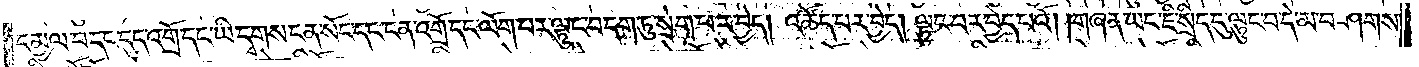དམྱལ་བ་དང་དུད་འགྲོ་དང་ཡི་དྭགས་ངན་སོང་དང་ངན་འགྲོ་དང་ལོག་པར་ལྟུང་བ་དག་ཏུ་སྲེག་པར་བྱེད། འཚོད་པར་བྱེད། ལྟུང་བར་བྱེད་པའོ། །གཞན་ཡང་ཇི་སྲིད་དུ་ལྟུང་བ་དེ་མ་བཤགས་
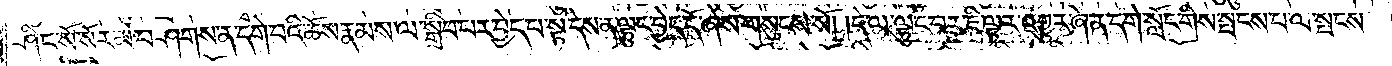ཤིང་སོ་སོར་མ་བཤགས་ན་དགེ་བའི་ཆོས་རྣམས་ལ་སྒྲིབ་པར་བྱེད་པ་སྟེ་དེས་ན་ལྟུང་བྱེད་དོ་ཞེས་གསུངས་སོ། །དེ་ལ་ལྟུང་བར་ཇི་ལྟར་འགྱུར་ཞེ་ན་དགེ་སློང་གིས་སྤངས་པ་ལ་སྤངས་
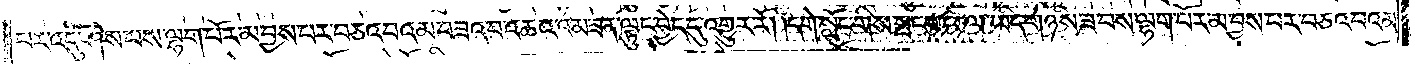པར་འདུ་ཤེས་པས་ལྷག་པོར་མ་བྱས་པར་བཅའ་བའམ་བཅའ་བ་འཆའ་འམ་ཟན་ལྟུང་བྱེད་དུ་འགྱུར་རོ། །དགེ་སློང་གིས་སྤངས་པ་ལ་ཡིད་གཉིས་ཟ་བས་ལྷག་པོར་མ་བྱས་པར་བཅའ་བའམ་
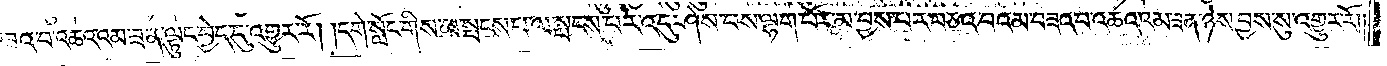བཟའ་བ་འཆའ་འམ་ཟ་ན་ལྟུང་བྱེད་དུ་འགྱུར་རོ། །དགེ་སློང་གིས་མ་སྤངས་པ་ལ་སྤངས་པ་ལ་འདུ་ཤེས་པས་ལྷག་པོར་མ་བྱས་པར་བཅའ་བའམ་བཟའ་བ་འཆའ་འམ་ཟན་ཉེས་བྱས་སུ་འགྱུར་རོ། །
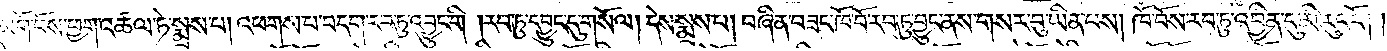མགོ་བོས་ཕྱག་འཚལ་ཏེ་སྨྲས་པ། འཕགས་པ་བདག་རབ་ཏུ་འབྱུང་གི །རབ་ཏུ་དབྱུང་དུ་གསོལ། དེས་སྨྲས་པ། བཞིན་བཟང་ཁོ་བོ་རབ་ཏུ་བྱུང་ནས་གསར་བུ་ཡིན་པས། ཁོ་བོས་རབ་ཏུ་འབྱིན་དུ་མི་རུང་ངོ༌། །
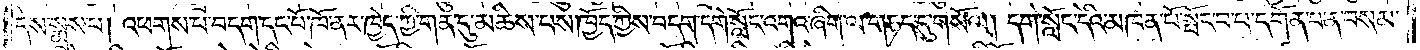དེ་སྨྲས་པ། འཕགས་པ་བདག་དང་པོ་ཁོ་ནར་ཁྱེད་ཀྱི་གན་དུ་མཆིས་པས་ཁྱོད་ཀྱིས་བདག་དགེ་སློང་འགའ་ཞིག་ལ་གཏད་དུ་གསོལ། དགེ་སློང་དེའི་མཁན་པོ་སྤོང་བ་པ་དགོན་པ་ན་བསམ་
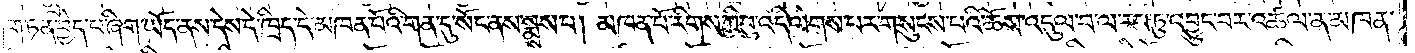གཏན་བྱེད་པ་ཞིག་ཡོད་ནས་དེས་དེ་ཁྲིད་དེ་མཁན་པོའི་གན་དུ་སོང་ནས་སྨྲས་པ། མཁན་པོ་རིགས་ཀྱི་བུ་འདི་ལེགས་པར་གསུངས་པའི་ཆོས་འདུལ་བ་ལ་རབ་ཏུ་འབྱུང་བར་འཚལ་ན་མཁན་
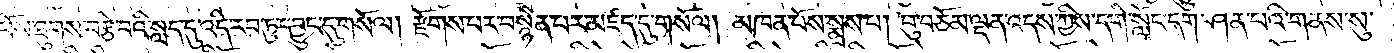པོས་ཐུགས་བརྩེ་བའི་སླད་དུ་འདི་རབ་ཏུ་དབྱུང་དུ་གསོལ། རྫོགས་པར་བསྙེན་པར་མཛད་དུ་གསོལ། མཁན་པོས་སྨྲས་པ། བུ་བཅོམ་ལྡན་འདས་ཀྱིས་དགེ་སློང་དག་ཤན་པའི་གནས་སུ་
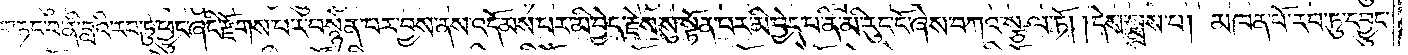གཏང་བ་ནི་བླའི་རབ་ཏུ་ཕྱུང་ཞིང་རྫོགས་པར་བསྙེན་པར་བྱས་ནས་འདོམས་པར་མི་བྱེད་རྗེས་སུ་སྟོན་པར་མི་བྱེད་པ་ནི་མི་རུང་ངོ་ཞེས་བཀའ་སྩལ་ཏོ། །དེས་སྨྲས་པ། མཁན་པོ་རབ་ཏུ་དབྱུང་
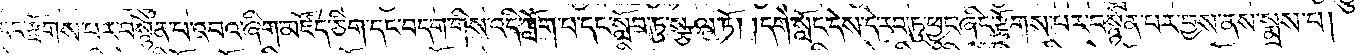བ་དང་རྫོགས་པར་བསྙེན་པ་འབའ་ཞིག་མཛོད་ཅིག་དང་བདག་གིས་འདི་ཀློག་པ་དང་སློབ་ཏུ་སྩལ་ཏོ། །དགེ་སློང་དེས་དེ་རབ་ཏུ་ཕྱུང་ཞིང་རྫོགས་པར་བསྙེན་པར་བྱས་ནས་སྨྲས་པ།
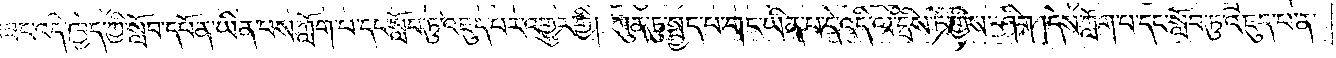བཞིན་བཟང་འདི་ཁྱེད་ཀྱི་སློབ་དཔོན་ཡིན་པས་ཀློག་པ་དང་སློབ་ཏུ་འཇུད་པར་འགྱུར་གྱི། ཀུན་ཏུ་སྤྱད་པ་གང་ཡིན་པ་དེ་འདི་ལ་དྲིས་ཏེ་གྱིས་ཤིག །དེས་ཀློག་པ་དང་སློབ་ཏུ་འཇུད་པ་ན་
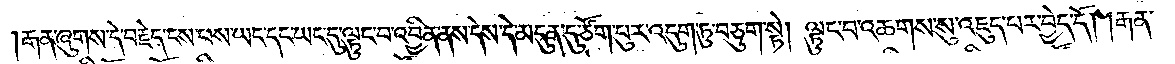རྒན་ཞུགས་དེ་བརྗེད་ངས་པས་ཡང་དང་ཡང་དུ་ལྟུང་བ་འབྱིན་ནས་དེས་དེ་མདུན་དུ་ཙོག་པུར་འདུག་ཏུ་བཅུག་སྟེ། ལྟུང་བ་འཆགས་སུ་འཇུད་པར་བྱེད་དོ། །རྒན་
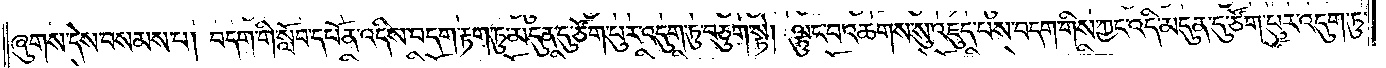ཞུགས་དེས་བསམས་པ། བདག་གིས་སློབ་དཔོན་འདིས་བདག་རྟག་ཏུ་མདུན་དུ་ཙོག་པུར་འདུག་ཏུ་བཅུག་སྟེ། ལྟུང་བ་འཆགས་སུ་འཇུད་པས་བདག་གིས་ཀྱང་འདི་མདུན་དུ་ཙོག་པུར་འདུག་ཏུ་
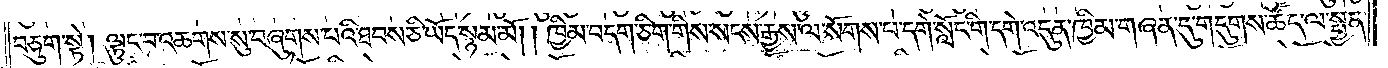བཅུག་སྟེ། ལྟུང་བ་འཆགས་སུ་བཞུགས་པའི་ཐབས་ཅི་ཡོད་སྙམ་མོ། །ཁྱིམ་བདག་ཅིག་གིས་སངས་རྒྱས་ལ་སོགས་པ་དགེ་སློང་གི་དགེ་འདུན་ཁྱིམ་གཞན་དུ་གདུགས་ཚོད་ལ་སྤྱན་
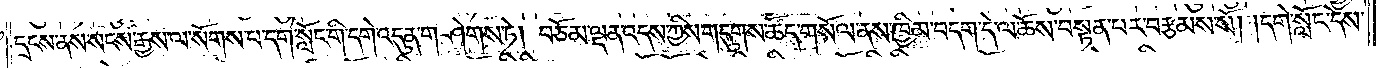དྲངས་ནས་སངས་རྒྱས་ལ་སོགས་པ་དགེ་སློང་གི་དགེ་འདུན་གཤེགས་ཏེ། བཅོམ་ལྡན་འདས་ཀྱིས་གདུགས་ཚོད་གསོལ་ནས་ཁྱིམ་བདག་དེ་ལ་ཆོས་བསྟན་པར་བརྩམས་སོ། །དགེ་སློང་དེས་
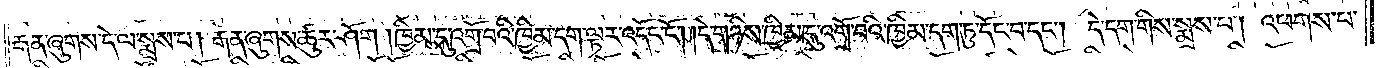རྒན་ཞུགས་དེ་ལ་སྨྲས་པ། རྒན་ཞུགས་ཚུར་ཤོག །ཁྱིམ་དུ་འགྲོ་བའི་ཁྱིམ་དག་ལྟར་འདོང་ངོ༌། །དེ་གཉིས་ཁྱིམ་དུ་འགྲོ་བའི་ཁྱིམ་དག་ཏུ་དོང་བ་དང༌། དེ་དག་གིས་སྨྲས་པ། འཕགས་པ་
